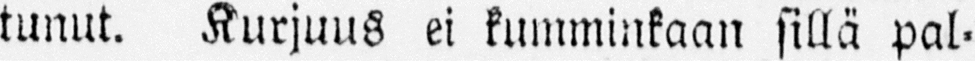tunut. Kurjuus ei kumminkaan sillä pal-
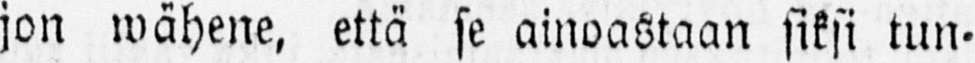jon wähene, että se ainoastaan siksi tun-
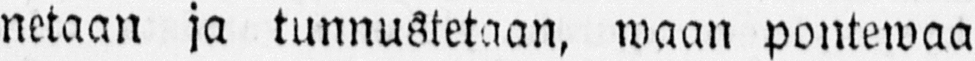netaan ja tunnustetaan, waan pontewaa
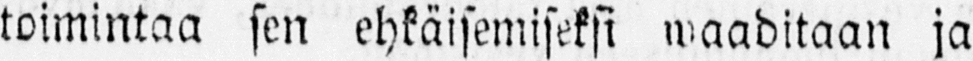toimintaa sen ehkäisemiseksi waaditaan ja
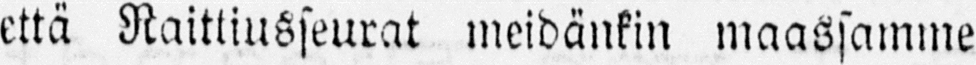että Raittiusseurat meidänkin maassamme
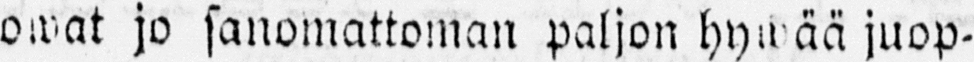owat jo sanomattoman paljon hywää juop-
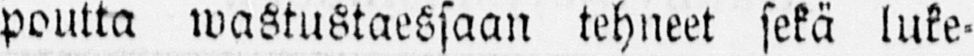poutta wastustaessaan tehneet sekä luke-
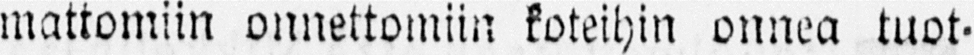mattomiin onnettomiin koteihin onnea tuot-
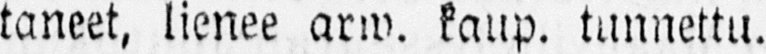taneet, lienee arw. kaup. tunnettu.
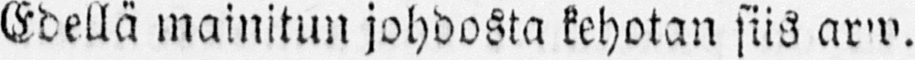Edellä mainitun johdosta kehotan siis arw.
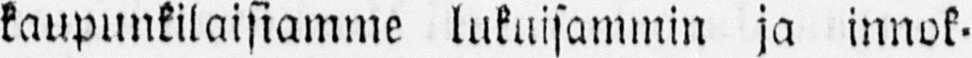kaupunkilaisiamme lukuisammin ja innok-
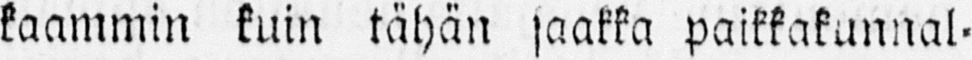kaammin kuin tähän saakka paikkakunnal-
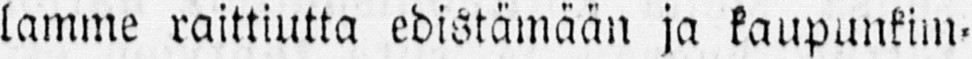lamme raittiutta edistämään ja kaupunkim-
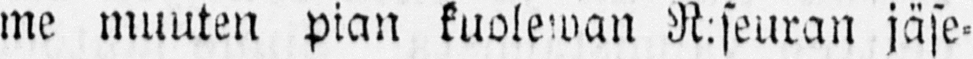me muuten pian kuolewan R:seuran jäse-
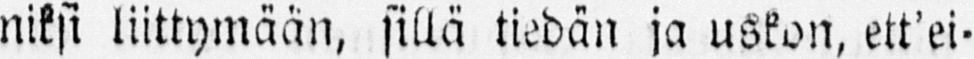niksi liittymään, sillä tiedän ja uskon, ett'ei-
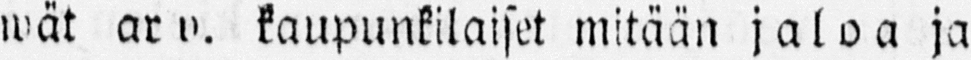wät arw. kaupunkilaiset mitään jaloa ja
